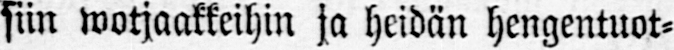siin wotjaakkeihin ja heidän hengentuot-
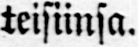teisiinsa.
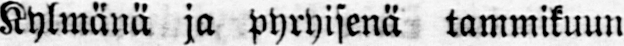Kylmänä ja pyryisenä tammikuun
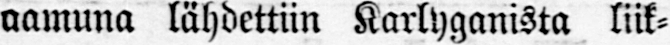aamuna lähdettiin Karlyganista liik-
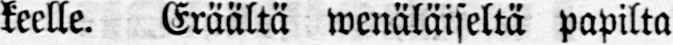keelle. Eräältä wenäläiseltä papilta
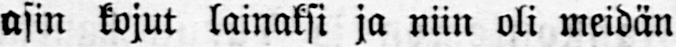asin kojut lainaksi ja niin oli meidän
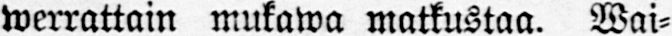werrattain mukawa matkustaa. Wai-
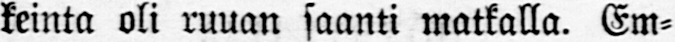keinta oli ruuan saanti matkalla. Em-
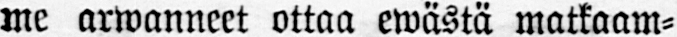me arwanneet ottaa ewästä matkaam-
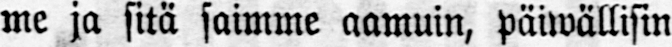me ja sitä saimme aamuin, päiwällisin
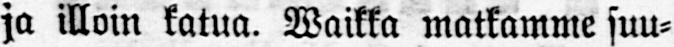ja illoin katua. Waikka matkamme suu-
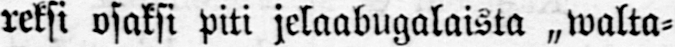reksi osaksi piti jelaabugalaista „walta-
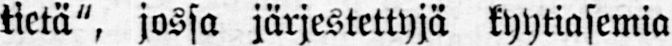tietä", jossa järjestettyjä kyytiasemia
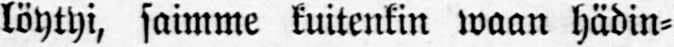löytyi, saimme kuitenkin waan hädin-
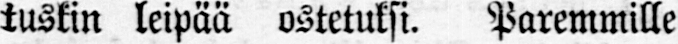tuskin leipää ostetuksi. Paremmille
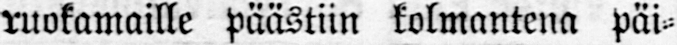ruokamaille päästiin kolmantena päi-
